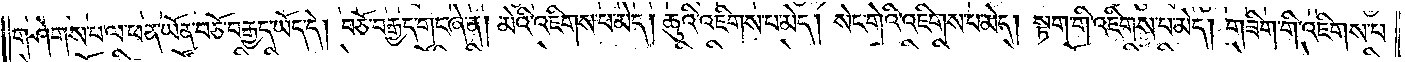གཤེགས་པ་ལ་ཕན་ཡོན་བཅོ་བརྒྱད་ཡོད་དེ། བཅོ་བརྒྱད་གང་ཞེ་ན། མེའི་འཇིགས་པ་མེད། ཆུའི་འཇིགས་པ་མེད། སེང་གེའི་འཇིགས་པ་མེད། སྟག་གི་འཇིགས་པ་མེད། གཟིག་གི་འཇིགས་པ་
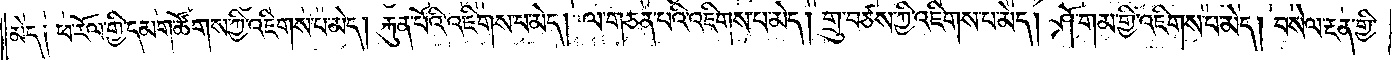མེད། ཕ་རོལ་གྱི་དམག་ཚོགས་ཀྱི་འཇིགས་པ་མེད། རྐུན་པོའི་འཇིགས་པ་མེད། ལ་གཅན་པའི་འཇིགས་པ་མེད། གྲུ་བཙས་ཀྱི་འཇིགས་པ་མེད། ཤོ་གམ་གྱི་འཇིགས་པ་མེད། བསེལ་རྔན་གྱི་
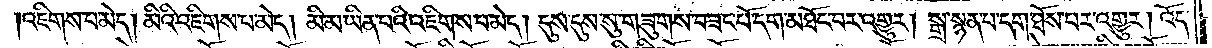འཇིགས་པ་མེད། མིའི་འཇིགས་པ་མེད། མི་མ་ཡིན་པའི་འཇིགས་པ་མེད། དུས་དུས་སུ་གཟུགས་བཟང་པོ་དག་མཐོང་བར་འགྱུར། སྒྲ་སྙན་པ་དག་ཐོས་པར་འགྱུར། འོད་
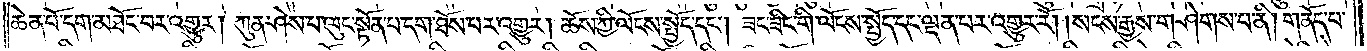ཆེན་པོ་དག་མཐོང་བར་འགྱུར། ཀུན་ཤེས་པ་ལུང་སྟོན་པ་དག་ཐོས་པར་འགྱུར། ཆོས་ཀྱི་ལོངས་སྤྱོད་དང༌། ཟང་ཟིང་གི་ལོངས་སྤྱོད་དང་ལྡན་པར་འགྱུར་རོ། །སངས་རྒྱས་གཤེགས་པ་ནི། གནོད་པ་
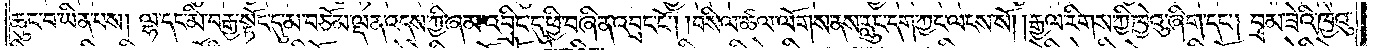ཆུང་བ་ཡིན་པས། ལྷ་དང་མི་བརྒྱ་སྟོང་དུ་མ་བཅོམ་ལྡན་འདས་ཀྱི་ཞམ་འབྲིང་དུ་ཕྱི་བཞིན་འབྲང་ངོ༌། །བསིལ་ཚལ་ལོགས་ནས་རླུང་དག་ཀྱང་ལངས་སོ། །རྒྱལ་རིགས་ཀྱི་ཁྱེའུ་ཞིག་དང༌། བྲམ་ཟེའི་ཁྱེའུ་
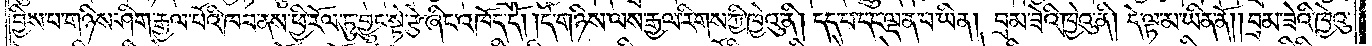བྱིས་པ་གཉིས་ཤིག་རྒྱལ་པོའི་ཁབ་ནས་ཕྱི་རོལ་ཏུ་བྱུང་སྟེ་རྩེ་ཞིང་འཁོད་དོ། །དེ་གཉིས་ལས་རྒྱལ་རིགས་ཀྱི་ཁྱེའུ་ནི། དད་པ་དང་ལྡན་པ་ཡིན། བྲམ་ཟེའི་ཁྱེའུ་ནི། དེ་ལྟ་མ་ཡིན་ནོ། །བྲམ་ཟེའི་ཁྱེའུ་
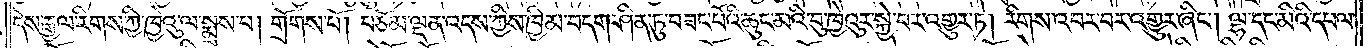དེས་རྒྱལ་རིགས་ཀྱི་ཁྱེའུ་ལ་སྨྲས་པ། གྲོགས་པོ། བཅོམ་ལྡན་འདས་ཀྱིས་ཁྱིམ་བདག་ཤིན་ཏུ་བཟང་པོའི་ཆུང་མའི་བུ་ཁྱེའུར་སྐྱེ་བར་འགྱུར་ཏེ། རིགས་འབར་བར་འགྱུར་ཞིང༌། ལྷ་དང་མིའི་དཔལ་
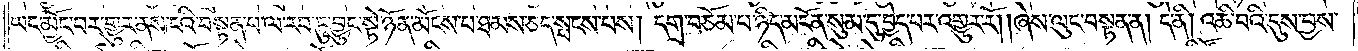ཡང་མྱོང་བར་གྱུར་ནས་ངའི་བསྟན་པ་ལ་རབ་ཏུ་བྱུང་སྟེ་ཉོན་མོངས་པ་ཐམས་ཅད་སྤངས་པས། དགྲ་བཅོམ་པ་ཉིད་མངོན་སུམ་དུ་བྱེད་པར་འགྱུར་རོ། །ཞེས་ལུང་བསྟན་ན། དེ་ནི། འཆི་བའི་དུས་བྱས་
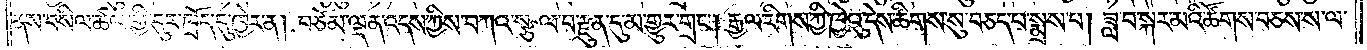ནས་བསིལ་ཚལ་གྱི་དུར་ཁྲོད་དུ་ཁྱེར་ན། བཅོམ་ལྡན་འདས་ཀྱིས་བཀའ་སྩལ་པ་རྫུན་དུ་མ་གྱུར་གྲང༌། རྒྱལ་རིགས་ཀྱི་ཁྱེའུ་དེས་ཚིགས་སུ་བཅད་པ་སྨྲས་པ། ཟླ་བ་སྐར་མའི་ཚོགས་བཅས་ས་ལ་
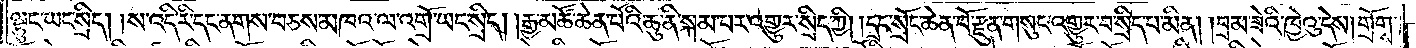ལྟུང་ཡང་སྲིད། །ས་འདི་རི་དང་ནགས་བཅས་མཁའ་ལ་འགྲོ་ཡང་སྲིད། །རྒྱ་མཚོ་ཆེན་པོའི་ཆུ་ནི་སྐམ་པར་འགྱུར་སྲིད་ཀྱི། །དྲང་སྲོང་ཆེན་པོ་རྫུན་གསུང་འགྱུར་བ་སྲིད་པ་མིན། །བྲམ་ཟེའི་ཁྱེའུ་དེས། གྲོགས་
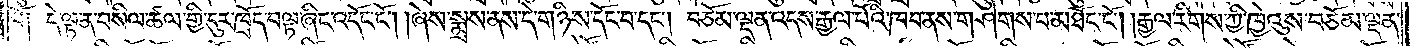པོ༑ དེ་ལྟ་ན་བསིལ་ཚལ་གྱི་དུར་ཁྲོད་བལྟ་ཞིང་འདོང་ངོ༌། །ཞེས་སྨྲས་ནས་དེ་གཉིས་དོང་བ་དང༌། བཅོམ་ལྡན་འདས་རྒྱལ་པོའི་ཁབ་ནས་གཤེགས་པ་མཐོང་ངོ༌། །རྒྱལ་རིགས་ཀྱི་ཁྱེའུས་བཅོམ་ལྡན་
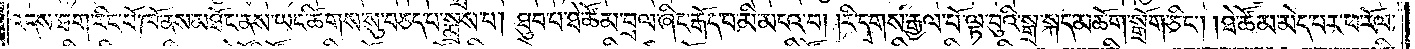འདས་ཐག་རིང་པོ་ཁོ་ནས་མཐོང་ནས་ཡང་ཚིགས་སུ་བཅད་པ་སྨྲས་པ། ཐུབ་པ་ཐེ་ཚོམ་བྲམ་ཞིང་རྒོད་པ་མི་མངའ་བ། །རི་དྭགས་རྒྱལ་པོ་ལྟ་བུའི་སྒྲ་སྐད་མཆོག་སྒྲོག་ཅིང༌། །ཐེ་ཚོམ་མེད་པར་ཕ་རོལ་
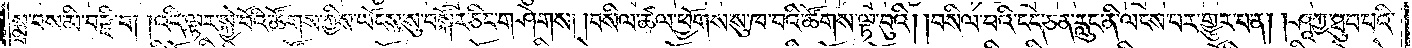སྨྲ་བས་མི་བརྫི་བ། །འདི་ལྟར་སྐྱེ་བོའི་ཚོགས་ཀྱིས་ཡོངས་སུ་བསྐོར་ཅིང་གཤེགས། །བསིལ་ཚལ་ཕྱོགས་སུ་ཁ་བའི་ཚོགས་ལྟ་བུའི། །བསིལ་བའི་ངད་ཅན་རླུང་ནི་ལངས་པར་གྱུར་པ་ན། །ཤཱཀྱ་ཐུབ་པའི་
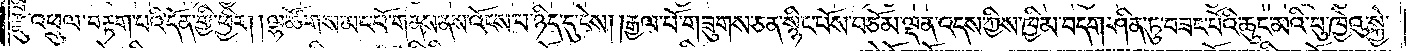རྫུ་འཕྲུལ་བརྟག་པའི་དོན་གྱི་ཕྱིར། །ལྷ་ཚོགས་མང་པོ་གནས་ནས་འོངས་པ་ཉིད་དུ་ངེས། །རྒྱལ་པོ་གཟུགས་ཅན་སྙིང་པོས་བཅོམ་ལྡན་འདས་ཀྱིས་ཁྱིམ་བདག་ཤིན་ཏུ་བཟང་པོའི་ཆུང་མའི་བུ་ཁྱེའུ་སྐྱེ་
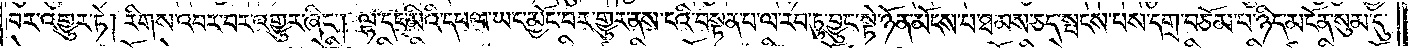བར་འགྱུར་ཏེ། རིགས་འབར་བར་འགྱུར་ཞིང༌། ལྷ་དང་མིའི་དཔལ་ཡང་མྱོང་བར་གྱུར་ནས་ངའི་བསྟན་པ་ལ་རབ་ཏུ་བྱུང་སྟེ་ཉོན་མོངས་པ་ཐམས་ཅད་སྤངས་པས་དགྲ་བཅོམ་པ་ཉིད་མངོན་སུམ་དུ་
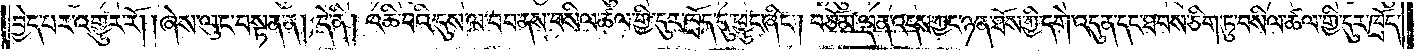བྱེད་པར་འགྱུར་རོ། །ཞེས་ལུང་བསྟན་ན། དེ་ནི། འཆི་བའི་དུས་ལ་བབ་ནས་བསིལ་ཚལ་གྱི་དུར་ཁྲོད་དུ་ཕྱུང་ཞིང༌། བཅོམ་ལྡན་འདས་ཀྱང་ཉན་ཐོས་ཀྱི་དགེ་འདུན་དང་ཐབས་ཅིག་ཏུ་བསིལ་ཚལ་གྱི་དུར་ཁྲོད་
